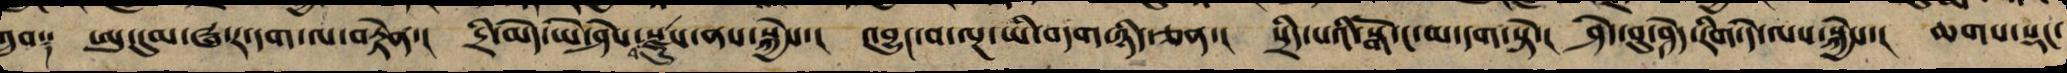གྲུབ༑ ཨུ་དུམ་ཝ་ར་དག་ལ་བརྟེན་། དྲི་མེད་ཡེ་ཤེས་སྫུས་ནས་སྐྱེས་། འབྱུང་བ་ལྔ་ཡི་བདག་ཉིད་ཅན་། སྲིད་པའི་སྒོ་ང་མ་དག་སྟེ་། ཤེད་བུ་ཤེད་རིག་དེ་ལས་སྐྱེས་། ཆགས་སྡང་
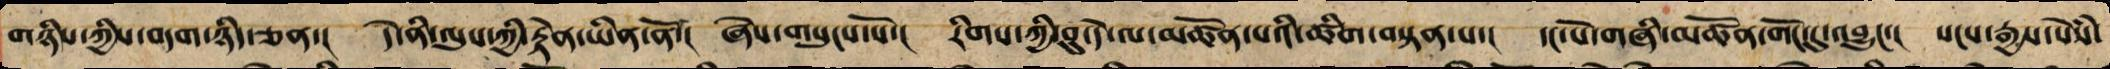གཉིས་ཀྱིས་བདག་ཉིད་ཅན་། དེ་ནི་ལུས་ཀྱི་རྟེན་ཡིན་ནོ་། ཞེས་གསུངས་སོ་། རིགས་ཀྱི་བུ་དེ་ལ་མཚོན་པའི་ཚིག་བསྟན་པ་། དང་པོ་གཞི་མཚོན་གོང་དུ་བྱུང་། སངས་རྒྱས་སེཾས་
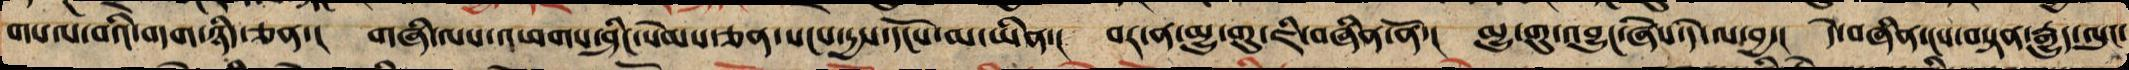གསལ་བའི་བདག་ཉིད་ཅན་། གཞི་ལས་འཕགས་ཤིང་སེམས་ཅན་སངས་དྱས་དངོས་མ་ཡིན་། བར་ན་མྱུ་གུ་ཇི་བཞིན་ནོ་། མྱུ་གུ་འབྱུང་ཞེས་དེ་ལ་བྱ་། དེ་བཞིན་ངས་བསྟན་རྒྱུད་ལུང་
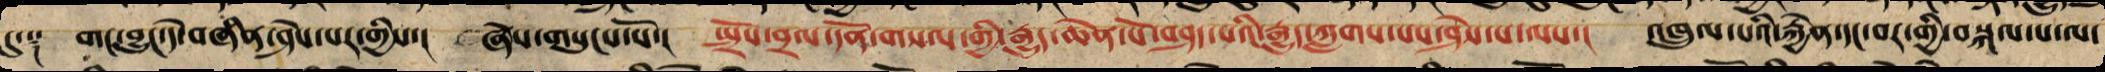དུ་༑ གང་བྱུང་དེ་བཞིན་ཤེས་པར་གྱིས་། ཞེས་གསུངས་སོ་། སྤྲོས་བྲལ་དོན་གསལ་གྱི་རྒྱུད་ཆེན་པོ་བཤད་པའི་རྒྱུད་ཀླགས་པས་ཤེས་པ་ལས་། འཁྲུལ་པའི་རྐྱེན་དང་བར་གྱི་བསྐལ་པ་ལ་
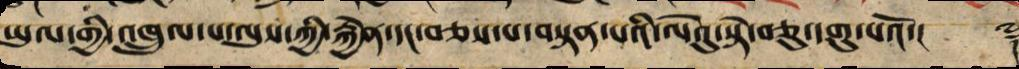ཡུལ་གྱི་འཁྲུལ་པ་ལུས་ཀྱི་རྐྱེན་དང་བཅས་པ་བསྟན་པའི་ལེའུ་སྟེ་བཅུ་དགུ་པའོ་།། ༈
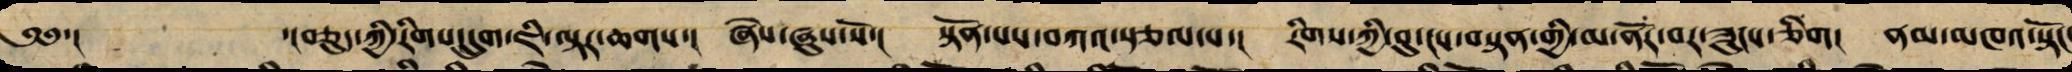༄༅་། ་།བཅུད་ཀྱི་རིགས་དྲུག་ཇི་ལྟར་ཆགས་། ཞེས་ཞུས་སོ་། སྟོན་པས་བཀའ་སྩལ་པ་། རིགས་ཀྱི་བུ་ངས་བསྟན་གྱི་མ་ནོར་བར་ཟུངས་ཅིག། ནམ་མཁའ་སྟོང་
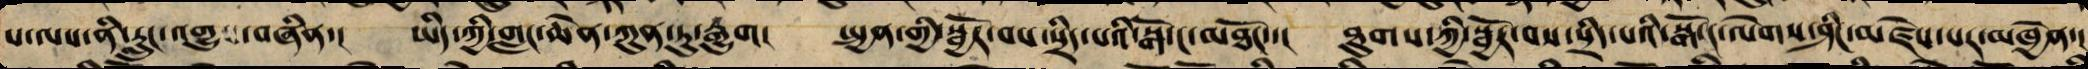པ་ལས་ནི་རླུང་འགྱུས་བཞིན་། ཡིད་ཀྱི་གླང་ཆེན་ཀུན་ཏུ་རྒྱུག། སྤྱན་གྱི་སྦྱོར་བས་སྲིད་པའི་སྒོ་ང་མཐོང་་། ཐུགས་ཀྱི་སྦྱོར་བས་སྲིད་པའི་སྒོ་ང་ལེགས་ཤིང་མཛེས་པར་མཁྱེན་།
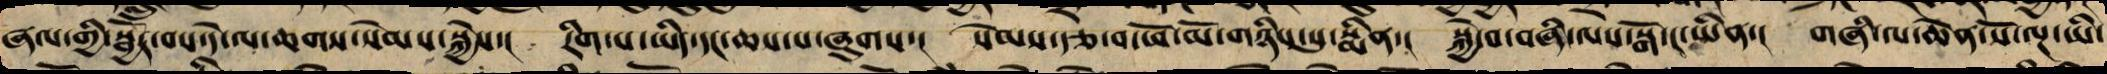ཞལ་གྱི་སྦྱོར་བས་དེ་ལ་ཆགས་སེམས་སྐྱེས་། རིག་པ་ཡིད་དང་ཆས་པ་ཞུགས་། སེམས་རྩ་བ་ཕོ་མོ་གཉིས་སུ་སྨིན་། སྐྱེ་བ་བཞི་ལས་སྒོ་ང་ཡིན་། གཞི་ལ་ཆེན་པོ་ལྔ་ཡི་
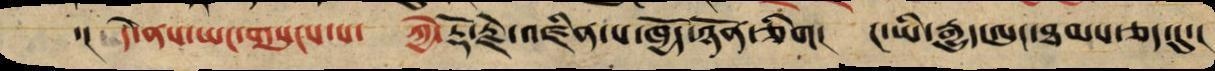་། དེ་ནས་ཡང་གསུངས་པ་ ཀྱེ་རྡོ་རྗེ་འཛིན་པ་ཁྱོད་ཉོན་ཅིག། ང་ཡིས་རྒྱུད་ལུང་ཐམས་ཅད་དུ་།
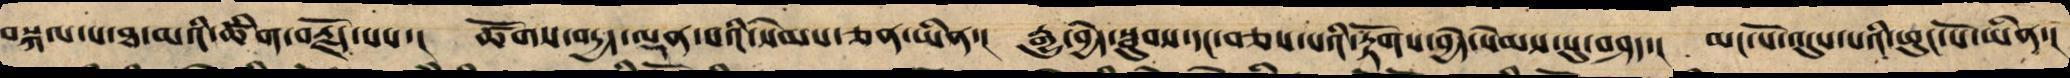བསྐལ་པ་ཐ་མའི་ཚིག་བརྗོད་པས་། ཚོགས་བདྱད་ལྡན་པའི་སེམས་ཅན་ཡིན་། རྒྱུ་བྱེད་སྦུབས་དང་བཅས་པའི་རྟོགས་བྱེད་སེམས་སུ་བཤད་། མང་པོ་འདུས་པའི་ཕུང་པོ་ཡིན་།
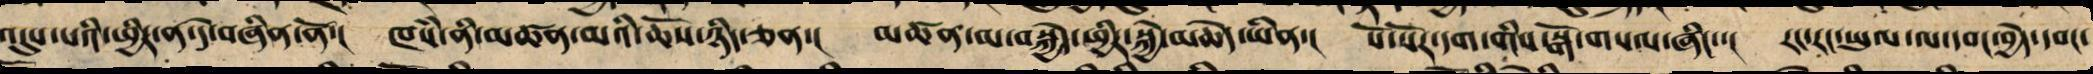འདུས་པའི་ཕྱིར་ན་དེ་བཞིན་ནོ་། ཁཾས་ནི་མཚན་མའི་ཆོས་ཉིད་ཅན་། མཚན་མ་བསྐྱེད་ཕྱིར་སྐྱེ་མཆེད་ཡིན་། སོ་སོར་དག་གིས་སྒོ་གསལ་ཞིང་་། རང་རང་ཡུལ་ལ་དབང་བྱེད་དབང་
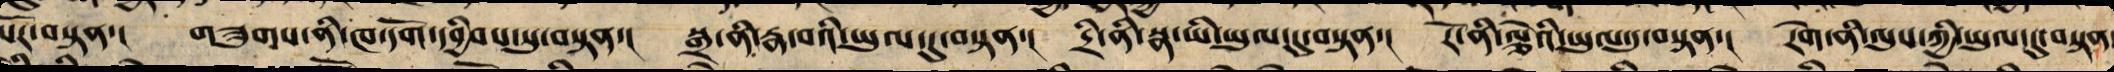པོར་བསྟན་། གཟུགས་ནི་ཁ་དོག་དབྱིབས་སུ་བསྟན་། སྒྲ་ནི་རྣ་བའི་ཡུལ་དུ་བསྟན་། དྲི་ནི་སྣ་ཡི་ཡུལ་དུ་བསྟན་། རོ་ནི་ལྕེའི་ཡུལ་དུ་བསྟན་། རེག་ནི་ལུས་ཀྱི་ཡུལ་དུ་བསྟན་
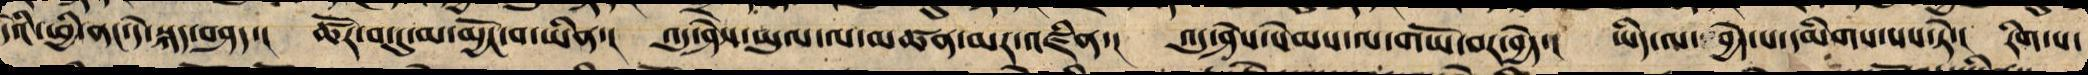དེའི་ཕྱི་ནང་དེ་སྐད་བཤད་། ཚོར་བ་དུ་མ་མྱོང་བ་ཡིན་། འདུ་ཤེས་ཡུལ་ལ་མཚན་མར་འཛིན་། འདུ་ཤེས་སེམས་ལ་གཡོ་བར་བྱེད་། ཡིད་ལ་ བྱེད་པ་དམིགས་པས་ཏེ་། རིག་པ་
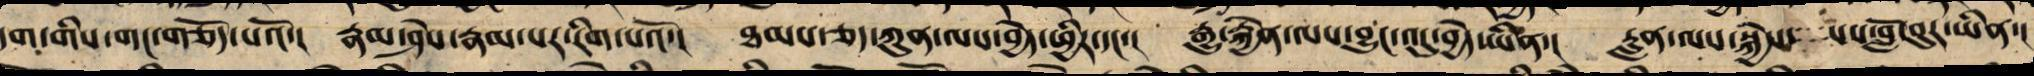དག་གིས་གང་གཅོད་པའོ་། རྣམ་ཤེས་རྣམ་པར་རིག་པའོ་། ཐམས་ཅད་ཀུན་ལས་བྱེད་ཕྱིར་དང་། རྒྱུ་རྐྱེན་ལས་བྱུང་འདུ་བྱེད་ཡིན་། རླན་ལས་སྐྱེས་ པས་བློ་བུར་ཡིན་།
